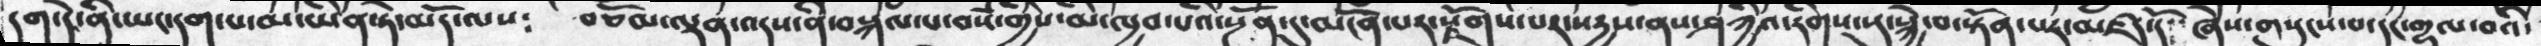དག་དེ་ནི་ཡང་དག་པ་མ་ཡིན་ཏེ་མདོ་ལས༴   བཅོམ་ལྡན་འདས་ནི་བསྐལ་པ་བསཾ་གྱིས་མི་ཁྱབ་པའི་སྔོན་དུ་མངོན་པར་སྫོགས་པར་སདྱས་ནས་ཤཀྱའི་རིགས་སུ་སྐྱེ་བ་སྟོན་པར་མཛད་དོ།  ཞེས་གསུངས་པ་དང་གྷལ་བའི་
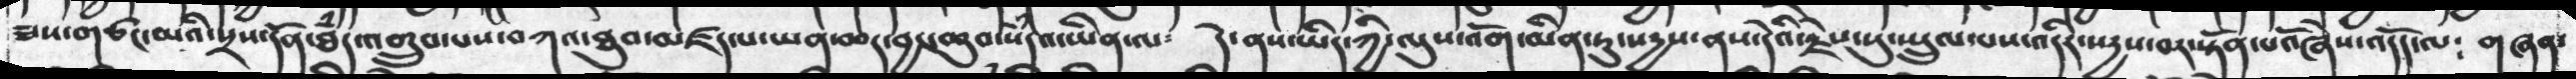ཟས་གཙང་མའི་སྲས་དོན་ཐཾད་འགྲུབ་པས་བཀའ་ཐུབ་མཛད་པ་ཡན་ཆད་བྱང་ཆུབ་སེཾདའ་ཡིན་ལ༴   དེ་ནས་ཡིད་ཀྱི་ལུས་འོག་མིན་ཏུ་སདྱས་ནས་དེའི་རྗེས་སུ་སྤྲུལ་པས་འདིར་སདྱས་བར་སྟོན་པའོཞེས་འདོད་པ༴  གཞན་
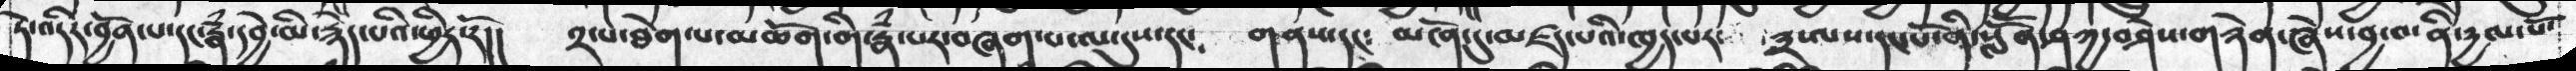ཏེ་འདིར་བྱོན་པ་དང་རྣཾ་དབྱེ་མ་རྙེད་པའི་ཕྱིར་རོ།།  ༢་པ་ཐེག་པ་མཆོག་གི་རྣཾ་པར་བཞག་པ་ལ་དུས་དང༴  གནས་དང༴  མངོན་དུ་མཛད་པའི་ཁྱད་པར་   ༣་ལས་དང་པོ་ནི་སློོན་ཤཀྱ་བཤེས་གཉེན་ཞེས་བྱ་བ་ནི་དྱལ་པོ་
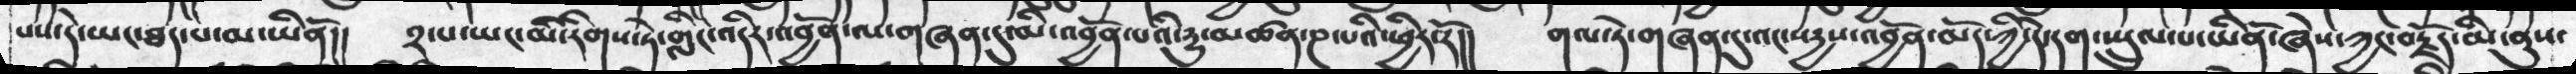པས་དེ་ཡང་ཐད་པ་མ་ཡིནོ།།   ༢་པ་ཡང་མི་རིགས་ཏེ་གླིང་འདིར་འབྱོན་ལ་གཞན་དུ་མི་འབྱོན་པའི་དྱུ་མཚན་ཎ་པའི་ཕྱིར་རོ།། གལ་ཏེ་གཞན་དུ་འང་སདྱས་འབྱོན་མདོ་ཀྱི་དེ་དག་སྤྲུལ་པ་ཡིནོ་ཞེས་ཀྱང་བརྗོད་མི་ནུས་
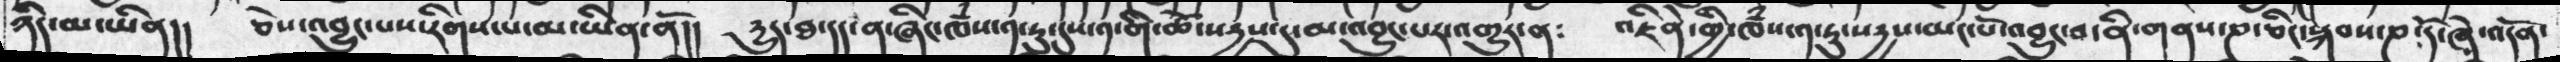ཉིད་མ་ཡིན།།  ཅེས་འབྱུང་པས་རིགས་པ་མ་ཡིན་ནོ།།  དྱུད་ཐ་དད་ན་ཞིང་ཁཾས་༡་ཏུ་དུས་༡་གི་ཚེ་སདྱས་དུ་མ་འབྱུང་པར་འགྱུར་ན༴   འཇིེན་གྱི་ཁཾས་༡་ཏུ་སདྱས་མང་པོ་འབྱུང་བ་ནི་གནས་ཎ་ཅིང་སྐབས་ཎ་དོ་ཞེ་འདོན་
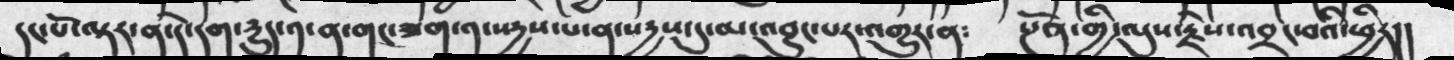དང་པོ་ལྟར་ན་དེ་དག་དྱུད་༡་ན་གང་ཟག་༡་སདྱས་པ་ན་སདྱས་དུ་མ་འབྱུང་པར་འགྱུར་ན༴    སྔོན་གྱི་ལུས་རྗེས་འབྲང་བའི་ཕྱིར།།
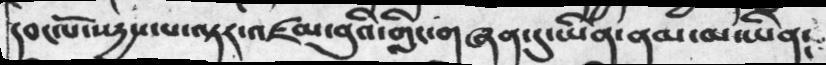དབང་པོ་སདྱས་པ་ལྟར་འཛམ་བུའི་གླིང་གཞན་དུ་ཡིན་ནམ་མ་ཡིན༴
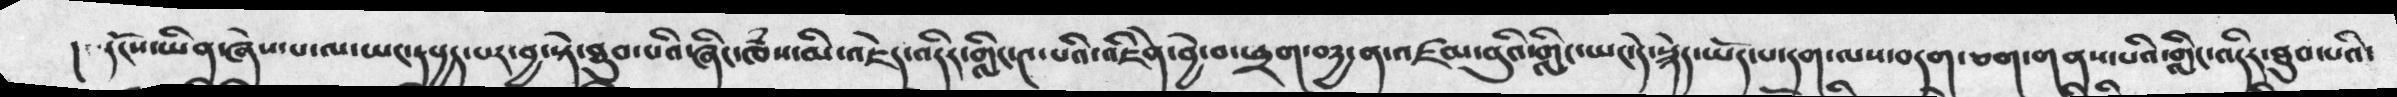།  དངོས་ཡིན་ཞེས་པ་ལ་ཡང་དཔྱད་པར་བྱ་སྟེ་ཐུབ་པའི་ཞིང་ཁཾས་མི་འཇེད་འདིར་གླིང་༤་པའི་འཇིེན་བྱེ་བ་ཕྲག་བདྱ་ན་འཛམ་བུའི་གླིང་ཡང་དེ་སྙེད་ཡོད་པ་དག་ལས་བདག་ཅག་གནས་པའི་གླིང་འདིར་ཐུབ་པའི་
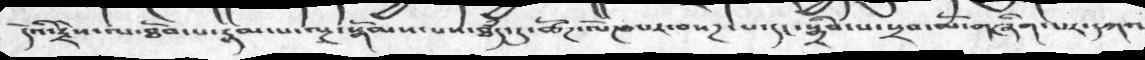དེའི་རྗེས་ལ་ཐོབ་པ་རྣམ་པ་ལྔ་སྒོམས་པས་ཐཾད་དུ་ཚོཌ་ལོཌ་པར་བསཌ་པ་དང་སྒྲིབ་པ་སྲབ་མོ་གཞིག་པར་དཀའ
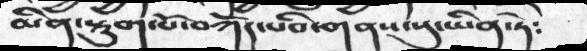མིན་སྟུག་པོ་བཀོད་པའི་གནས་སུ་ཡིན་ཏེ༴
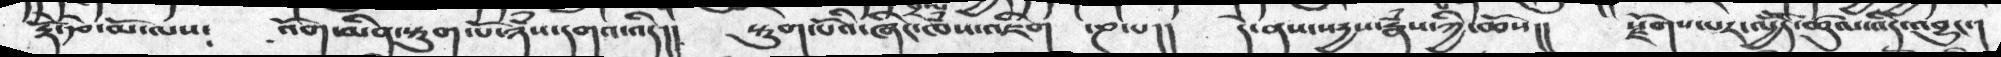རྡོེ་རྩེ་མོ་ལས༴  འོག་མིན་སྟུག་པོ་ཉཾས་དགའ་འདི།།   སྟུག་པོའི་ཞིང་ཁཾས་འཇིག   ་ཎ་པ།།   དེ་ནས་སརྱས་རྣཾས་ཀྱི་ཆོས།།   སྫོགས་པར་ལྱོོད་ཚུལ་འདི་འབྱུང་།
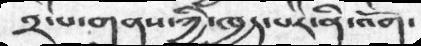༢་པ་གནས་ཀྱི་ཁྱད་པར་ནི་འོག་
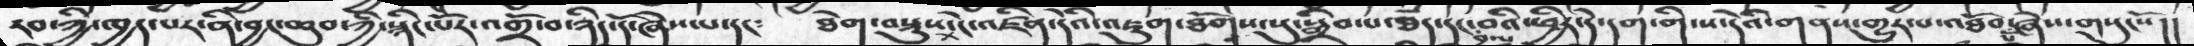རབ་ཀྱི་ཁྱད་པར་ནི་བྱང་ཆུབ་ཀྱི་སྙིང་པོར་འགྲོ་བ་ཉིད་དོ་ཞེས་པ་དང་   ཐེག་བསྡུས་ངེ་འཛིན་དེའི་འཇུག་ཐོགས་སུ་སྒྲིབ་པ་ཐཾད་དང་བྲལ་བའི་ཕྱིར་དེ་དག་གི་ས་དེའི་གནས་གྱུར་པ་འཐོབ་པ་ཞེས་གསུངསོ།།
